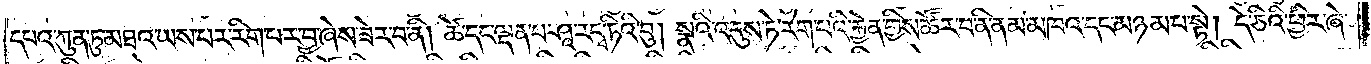དཔའ་ཀུན་ཏུ་མཐའ་ཡས་པར་རིག་པར་བྱ་ཞེས་ཟེར་བ་ནི། ཚེ་དང་ལྡན་པ་ཤཱ་ར་དྭ་ཏིའི་བུ། སྣའི་འདུས་ཏེ་རེག་པའི་རྐྱེན་གྱིས་ཚོར་བ་ནི་ནམ་མཁའ་དང་མཉམ་པ་སྟེ། དེ་ཅིའི་ཕྱིར་ཞེ་
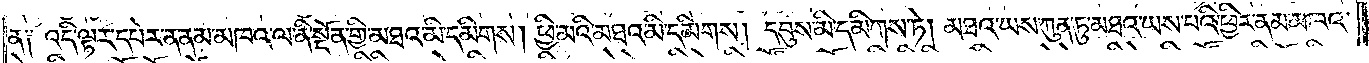ན། འདི་ལྟར་དཔེར་ན་ནམ་མཁའ་ལ་ནི་སྔོན་གྱི་མཐའ་མི་དམིགས། ཕྱི་མའི་མཐའ་མི་དམིགས། དབུས་མི་དམིགས་ཏེ། མཐའ་ཡས་ཀུན་ཏུ་མཐའ་ཡས་པའི་ཕྱིར་ནམ་མཁའ་
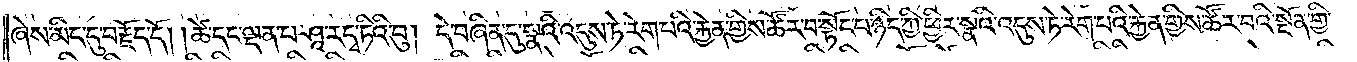ཞེས་མིང་དུ་བརྗོད་དོ། །ཚེ་དང་ལྡན་པ་ཤཱ་ར་དྭ་ཏིའི་བུ། དེ་བཞིན་དུ་སྣའི་འདུས་ཏེ་རེག་པའི་རྐྱེན་གྱིས་ཚོར་བ་སྟོང་པ་ཉིད་ཀྱི་ཕྱིར་སྣའི་འདུས་ཏེ་རེག་པའི་རྐྱེན་གྱིས་ཚོར་བའི་སྔོན་གྱི་
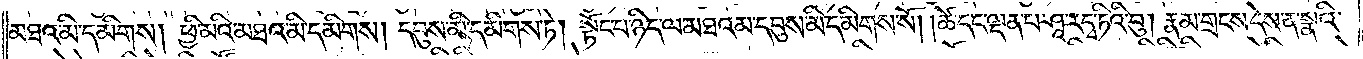མཐའ་མི་དམིགས། ཕྱི་མའི་མཐའ་མི་དམིགས། དབུས་མི་དམིགས་ཏེ། སྟོང་པ་ཉིད་ལ་མཐའམ་དབུས་མི་དམིགས་སོ། །ཚེ་དང་ལྡན་པ་ཤཱ་ར་དྭ་ཏིའི་བུ། རྣམ་གྲངས་དེས་ན་སྣའི་
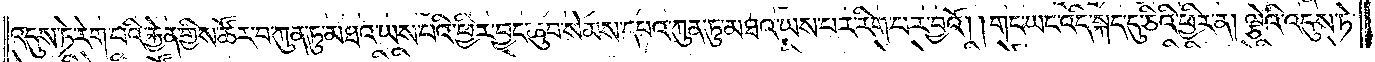འདུས་ཏེ་རེག་པའི་རྐྱེན་གྱིས་ཚོར་བ་ཀུན་ཏུ་མཐའ་ཡས་པའི་ཕྱིར་བྱང་ཆུབ་སེམས་དཔའ་ཀུན་ཏུ་མཐའ་ཡས་པར་རིག་པར་བྱའོ། །གང་ཡང་འདི་སྐད་དུ་ཅིའི་ཕྱིར་ན། ལྕེའི་འདུས་ཏེ་
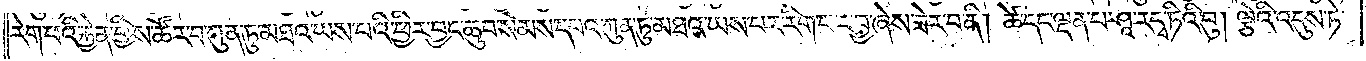རེག་པའི་རྐྱེན་གྱིས་ཚོར་བ་ཀུན་ཏུ་མཐའ་ཡས་པའི་ཕྱིར་བྱང་ཆུབ་སེམས་དཔའ་ཀུན་ཏུ་མཐའ་ཡས་པར་རིག་པར་བྱ་ཞེས་ཟེར་བ་ནི། ཚེ་དང་ལྡན་པ་ཤཱ་ར་དྭ་ཏིའི་བུ། ལྕེའི་འདུས་ཏེ་
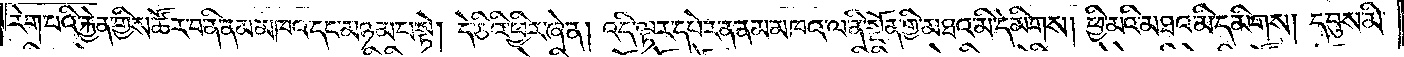རེག་པའི་རྐྱེན་གྱིས་ཚོར་བ་ནི་ནམ་མཁའ་དང་མཉམ་པ་སྟེ། དེ་ཅིའི་ཕྱིར་ཞེ་ན། འདི་ལྟར་དཔེར་ན་ནམ་མཁའ་ལ་ནི་སྔོན་གྱི་མཐའ་མི་དམིགས། ཕྱི་མའི་མཐའ་མི་དམིགས། དབུས་མི་
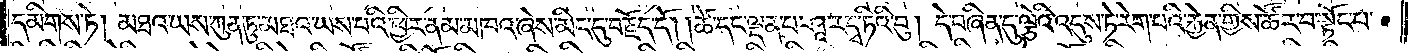དམིགས་ཏེ། མཐའ་ཡས་ཀུན་ཏུ་མཐའ་ཡས་པའི་ཕྱིར་ནམ་མཁའ་ཞེས་མིང་དུ་བརྗོད་དོ། །ཚེ་དང་ལྡན་པ་ཤཱ་ར་དྭ་ཏིའི་བུ། དེ་བཞིན་དུ་ལྕེའི་འདུས་ཏེ་རེག་པའི་རྐྱེན་གྱིས་ཚོར་བ་སྟོང་པ་
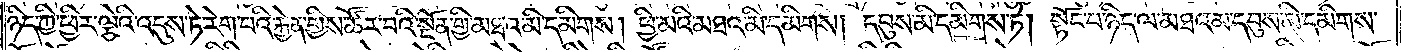ཉིད་ཀྱི་ཕྱིར་ལྕེའི་འདུས་ཏེ་རེག་པའི་རྐྱེན་གྱིས་ཚོར་བའི་སྔོན་གྱི་མཐའ་མི་དམིགས། ཕྱི་མའི་མཐའ་མི་དམིགས། དབུས་མི་དམིགས་ཏེ། སྟོང་པ་ཉིད་ལ་མཐའམ་དབུས་མི་དམིགས་
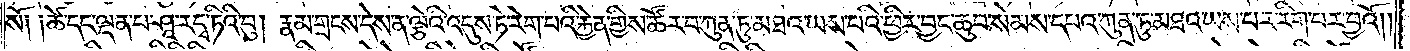སོ༑ ༑ཚེ་དང་ལྡན་པ་ཤཱ་ར་དྭ་ཏིའི་བུ། རྣམ་གྲངས་དེས་ན་ལྕེའི་འདུས་ཏེ་རེག་པའི་རྐྱེན་གྱིས་ཚོར་བ་ཀུན་ཏུ་མཐའ་ཡས་པའི་ཕྱིར་བྱང་ཆུབ་སེམས་དཔའ་ཀུན་ཏུ་མཐའ་ཡས་པར་རིག་པར་བྱའོ། །
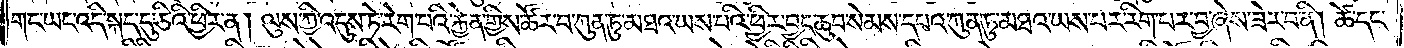གང་ཡང་འདི་སྐད་དུ་ཅིའི་ཕྱིར་ན། ལུས་ཀྱི་འདུས་ཏེ་རེག་པའི་རྐྱེན་གྱིས་ཚོར་བ་ཀུན་ཏུ་མཐའ་ཡས་པའི་ཕྱིར་བྱང་ཆུབ་སེམས་དཔའ་ཀུན་ཏུ་མཐའ་ཡས་པར་རིག་པར་བྱ་ཞེས་ཟེར་བ་ནི། ཚེ་དང་
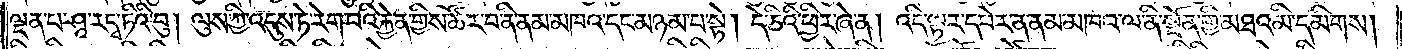ལྡན་པ་ཤཱ་ར་དྭ་ཏིའི་བུ། ལུས་ཀྱི་འདུས་ཏེ་རེག་པའི་རྐྱེན་གྱིས་ཚོར་བ་ནི་ནམ་མཁའ་དང་མཉམ་པ་སྟེ། དེ་ཅིའི་ཕྱིར་ཞེ་ན། འདི་ལྟར་དཔེར་ན་ནམ་མཁའ་ལ་ནི་སྔོན་གྱི་མཐའ་མི་དམིགས།
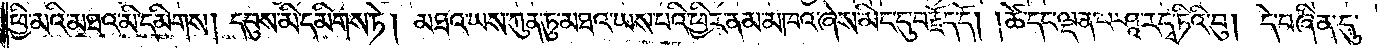ཕྱི་མའི་མཐའ་མི་དམིགས། དབུས་མི་དམིགས་ཏེ། མཐའ་ཡས་ཀུན་ཏུ་མཐའ་ཡས་པའི་ཕྱིར་ནམ་མཁའ་ཞེས་མིང་དུ་བརྗོད་དོ། །ཚེ་དང་ལྡན་པ་ཤཱ་ར་དྭ་ཏིའི་བུ། དེ་བཞིན་དུ་
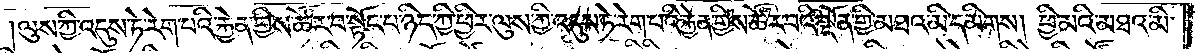།ལུས་ཀྱི་འདུས་ཏེ་རེག་པའི་རྐྱེན་གྱིས་ཚོར་བ་སྟོང་པ་ཉིད་ཀྱི་ཕྱིར་ལུས་ཀྱི་འདུས་ཏེ་རེག་པའི་རྐྱེན་གྱིས་ཚོར་བའི་སྔོན་གྱི་མཐའ་མི་དམིགས། ཕྱི་མའི་མཐའ་མི་
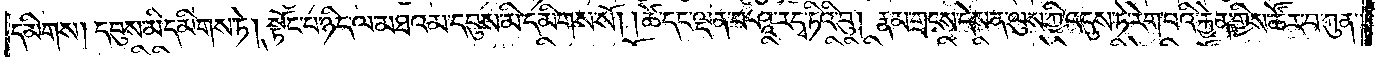དམིགས། དབུས་མི་དམིགས་ཏེ། སྟོང་པ་ཉིད་ལ་མཐའམ་དབུས་མི་དམིགས་སོ། །ཚེ་དང་ལྡན་པ་ཤཱ་ར་དྭ་ཏིའི་བུ། རྣམ་གྲངས་དེས་ན་ལུས་ཀྱི་འདུས་ཏེ་རེག་པའི་རྐྱེན་གྱིས་ཚོར་བ་ཀུན་
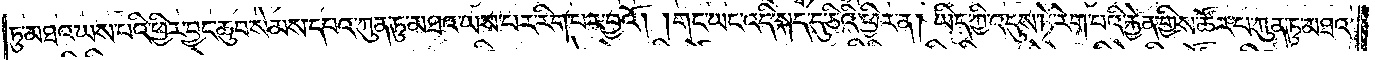ཏུ་མཐའ་ཡས་པའི་ཕྱིར་བྱང་ཆུབ་སེམས་དཔའ་ཀུན་ཏུ་མཐའ་ཡས་པར་རིག་པར་བྱའོ། །གང་ཡང་འདི་སྐད་དུ་ཅིའི་ཕྱིར་ན། ཡིད་ཀྱི་འདུས་ཏེ་རེག་པའི་རྐྱེན་གྱིས་ཚོར་བ་ཀུན་ཏུ་མཐའ་
